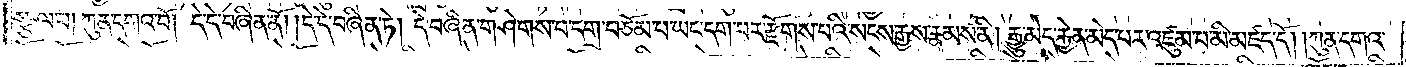སྩལ་པ། ཀུན་དགའ་བོ། །དེ་དེ་བཞིན་ནོ། །དེ་དེ་བཞིན་ཏེ། དེ་བཞིན་གཤེགས་པ་དགྲ་བཅོམ་པ་ཡང་དག་པར་རྫོགས་པའི་སངས་རྒྱས་རྣམས་ནི། རྒྱུ་མེད་རྐྱེན་མེད་པར་འཛུམ་པ་མི་མཛད་དོ། །ཀུན་དགའ་
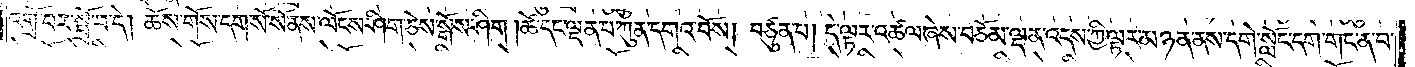འགྲོ་བར་སྤྲོ་བ་དེ། ཆོས་གོས་དག་སོ་སོ་ནས་ལོངས་ཤིག་ཅེས་སྒོས་ཤིག །ཚེ་དང་ལྡན་པ་ཀུན་དགའ་བོས། བཙུན་པ། དེ་ལྟར་འཚལ་ཞེས་བཅོམ་ལྡན་འདས་ཀྱི་ལྟར་མཉན་ནས་དགེ་སློང་དག་གང་ན་བ་
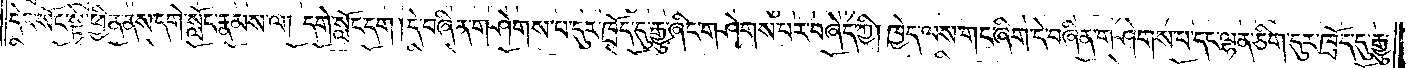དེར་སོང་སྟེ་ཕྱིན་ནས་དགེ་སློང་རྣམས་ལ། དགེ་སློང་དག །དེ་བཞིན་གཤེགས་པ་དུར་ཁྲོད་དུ་རྒྱུ་ཞིང་གཤེགས་པར་བཞེད་ཀྱི། ཁྱེད་ལས་གང་ཞིག་དེ་བཞིན་གཤེགས་པ་དང་ལྷན་ཅིག་དུར་ཁྲོད་དུ་རྒྱུ་
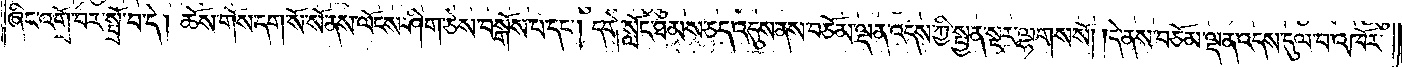ཞིང་འགྲོ་བར་སྤྲོ་བ་དེ། ཆོས་གོས་དག་སོ་སོ་ནས་ལོངས་ཤིག་ཅེས་བསྒོས་པ་དང༌། དགེ་སློང་ཐམས་ཅད་འདུས་ནས་བཅོམ་ལྡན་འདས་ཀྱི་སྤྱན་སྔར་ལྷགས་སོ། །དེ་ནས་བཅོམ་ལྡན་འདས་དུལ་བ་འཁོར་
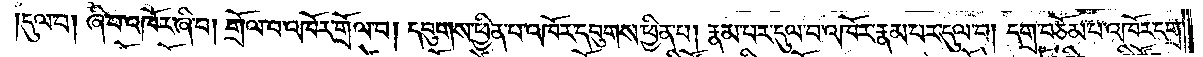དུལ་བ། ཞི་བ་འཁོར་ཞི་བ། གྲོལ་བ་འཁོར་གྲོལ་བ། དབུགས་ཕྱིན་པ་འཁོར་དབུགས་ཕྱིན་པ། རྣམ་པར་དུལ་བ་འཁོར་རྣམ་པར་དུལ་བ། དགྲ་བཅོམ་པ་འཁོར་དགྲ་
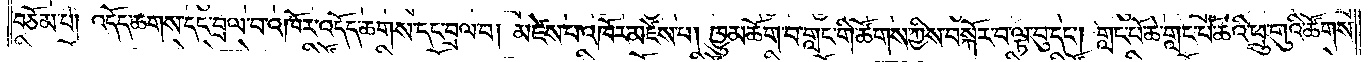བཅོམ་པ། འདོད་ཆགས་དང་བྲལ་བ་འཁོར་འདོད་ཆགས་དང་བྲལ་བ། མཛེས་པ་འཁོར་མཛེས་པ། ཁྱུ་མཆོག་པ་གླང་གི་ཚོགས་ཀྱིས་བསྐོར་བ་ལྟ་བུ་དང༌། གླང་པོ་ཆེ་གླང་པོ་ཆེའི་ཕྲུ་གུའི་ཚོགས་
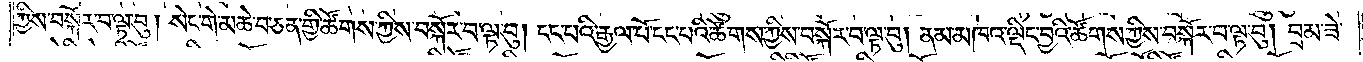ཀྱིས་བསྐོར་བ་ལྟ་བུ། སེང་གེ་མཆེ་བ་ཅན་གྱི་ཚོགས་ཀྱིས་བསྐོར་བ་ལྟ་བུ། ངང་པའི་རྒྱལ་པོ་ངང་པའི་ཚོགས་ཀྱིས་བསྐོར་བ་ལྟ་བུ། ནམ་མཁའ་ལྡིང་བྱའི་ཚོགས་ཀྱིས་བསྐོར་བ་ལྟ་བུ། བྲམ་ཟེ་
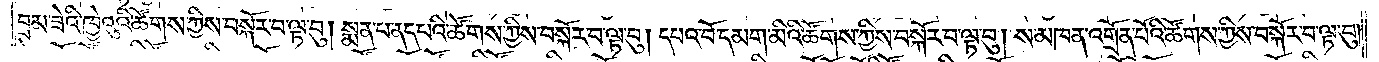བྲམ་ཟེའི་ཁྱེའུའི་ཚོགས་ཀྱིས་བསྐོར་བ་ལྟ་བུ། སྨན་པ་ནད་པའི་ཚོགས་ཀྱིས་བསྐོར་བ་ལྟ་བུ། དཔའ་བོ་དམག་མིའི་ཚོགས་ཀྱིས་བསྐོར་བ་ལྟ་བུ། ས་མཁན་འགྲོན་པོའི་ཚོགས་ཀྱིས་བསྐོར་བ་ལྟ་བུ།
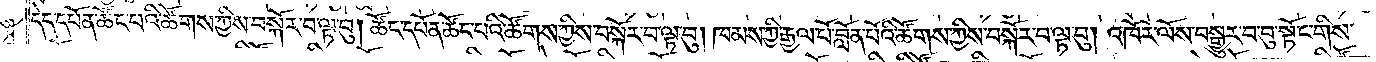དེད་དཔོན་ཚོང་པའི་ཚོགས་ཀྱིས་བསྐོར་བ་ལྟ་བུ། ཚོང་དཔོན་ཚོང་པའི་ཚོགས་ཀྱིས་བསྐོར་བ་ལྟ་བུ། ཁམས་ཀྱི་རྒྱལ་པོ་བློན་པོའི་ཚོགས་ཀྱིས་བསྐོར་བ་ལྟ་བུ། འཁོར་ལོས་བསྒྱུར་བ་བུ་སྟོང་གིས་
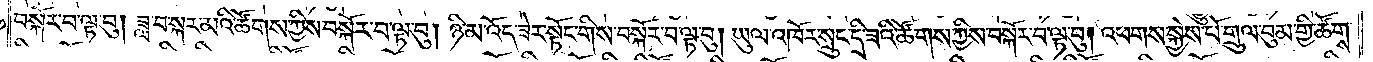བསྐོར་བ་ལྟ་བུ། ཟླ་བ་སྐར་མའི་ཚོགས་ཀྱིས་བསྐོར་བ་ལྟ་བུ། ཉི་མ་འོད་ཟེར་སྟོང་གིས་བསྐོར་བ་ལྟ་བུ། ཡུམ་འཁོར་སྲུང་དྲི་ཟའི་ཚོགས་ཀྱིས་བསྐོར་བ་ལྟ་བུ། འཕགས་སྐྱེས་པོ་གྲུལ་བུམ་གྱི་ཚོགས་
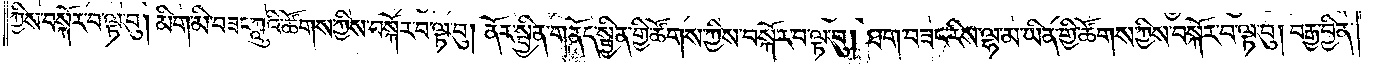ཀྱིས་བསྐོར་བ་ལྟ་བུ། མིག་མི་བཟང་ཀླུའི་ཚོགས་ཀྱིས་བསྐོར་བ་ལྟ་བུ། ནོར་སྦྱིན་གནོད་སྦྱིན་གྱི་ཚོགས་ཀྱིས་བསྐོར་བ་ལྟ་བུ། ཐག་བཟང་རིས་ལྷ་མ་ཡིན་གྱི་ཚོགས་ཀྱིས་བསྐོར་བ་ལྟ་བུ། བརྒྱ་བྱིན་
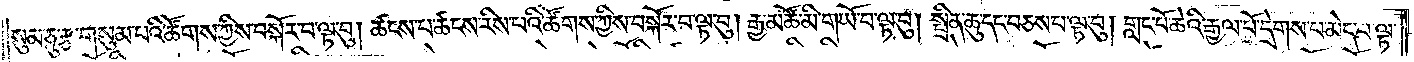སུམ་ཅུ་རྩ་གསུམ་པའི་ཚོགས་ཀྱིས་བསྐོར་བ་ལྟ་བུ། ཚངས་པ་ཚངས་རིས་པའི་ཚོགས་ཀྱིས་བསྐོར་བ་ལྟ་བུ། རྒྱ་མཚོ་མི་གཡོ་བ་ལྟ་བུ། སྤྲིན་ཆུ་དང་བཅས་པ་ལྟ་བུ། གླང་པོ་ཆེའི་རྒྱལ་པོ་དྲགས་པ་མེད་པ་ལྟ་
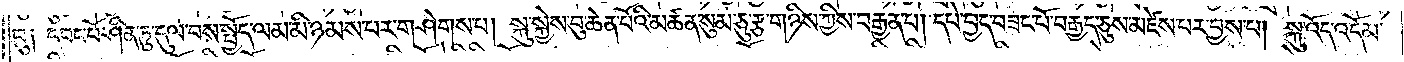བུ༑ དབང་པོ་ཤིན་ཏུ་དུལ་བས་སྤྱོད་ལམ་མི་ཉམས་པར་གཤེགས་པ། སྐུ་སྐྱེས་བུ་ཆེན་པོའི་མཚན་སུམ་ཅུ་རྩ་གཉིས་ཀྱིས་བརྒྱན་པ། དཔེ་བྱད་བཟང་པོ་བརྒྱད་ཅུས་མཛེས་པར་བྱས་པ། སྐུ་འོད་འདོམ་
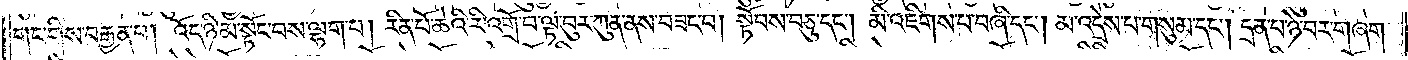གང་གིས་བརྒྱན་པ། འོད་ཉི་མ་སྟོང་བས་ལྷག་པ། རིན་པོ་ཆེའི་རི་འགྲོ་བ་ལྟ་བུར་ཀུན་ནས་བཟང་བ། སྟོབས་བཅུ་དང༌། མི་འཇིགས་པ་བཞི་དང༌། མ་འདྲེས་པ་གསུམ་དང༌། དྲན་པ་ཉེ་བར་གཞག་
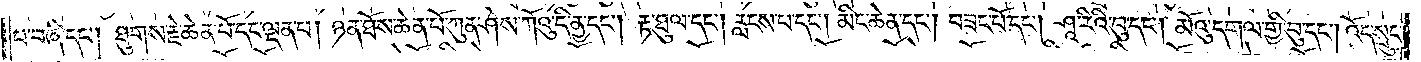པ་བཞི་དང༌། ཐུགས་རྗེ་ཆེན་པོ་དང་ལྡན་པ། ཉན་ཐོས་ཆེན་པོ་ཀུན་ཤེས་ཀོའུ་དི་ནྱ་དང༌། རྟ་ཐུལ་དང༌། རླངས་པ་དང༌། མིང་ཆེན་དང༌། བཟང་པོ་དང༌། ཤཱ་རིའི་བུ་དང༌། མོའུ་དགལ་གྱི་བུ་དང༌། འོད་སྲུང་
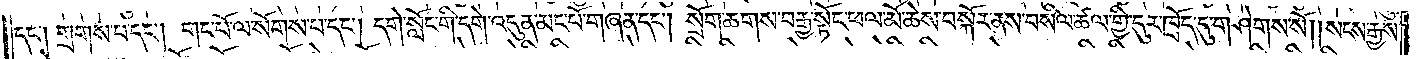དང༌། གྲགས་པ་དང༌། གང་པོ་ལ་སོགས་པ་དང༌། དགེ་སློང་གི་དགེ་འདུན་མང་པོ་གཞན་དང༌། སྲོག་ཆགས་བརྒྱ་སྟོང་ཕལ་མོ་ཆེས་བསྐོར་ནས་བསིལ་ཚལ་གྱི་དུར་ཁྲོད་དུ་གཤེགས་སོ། །སངས་རྒྱས་
